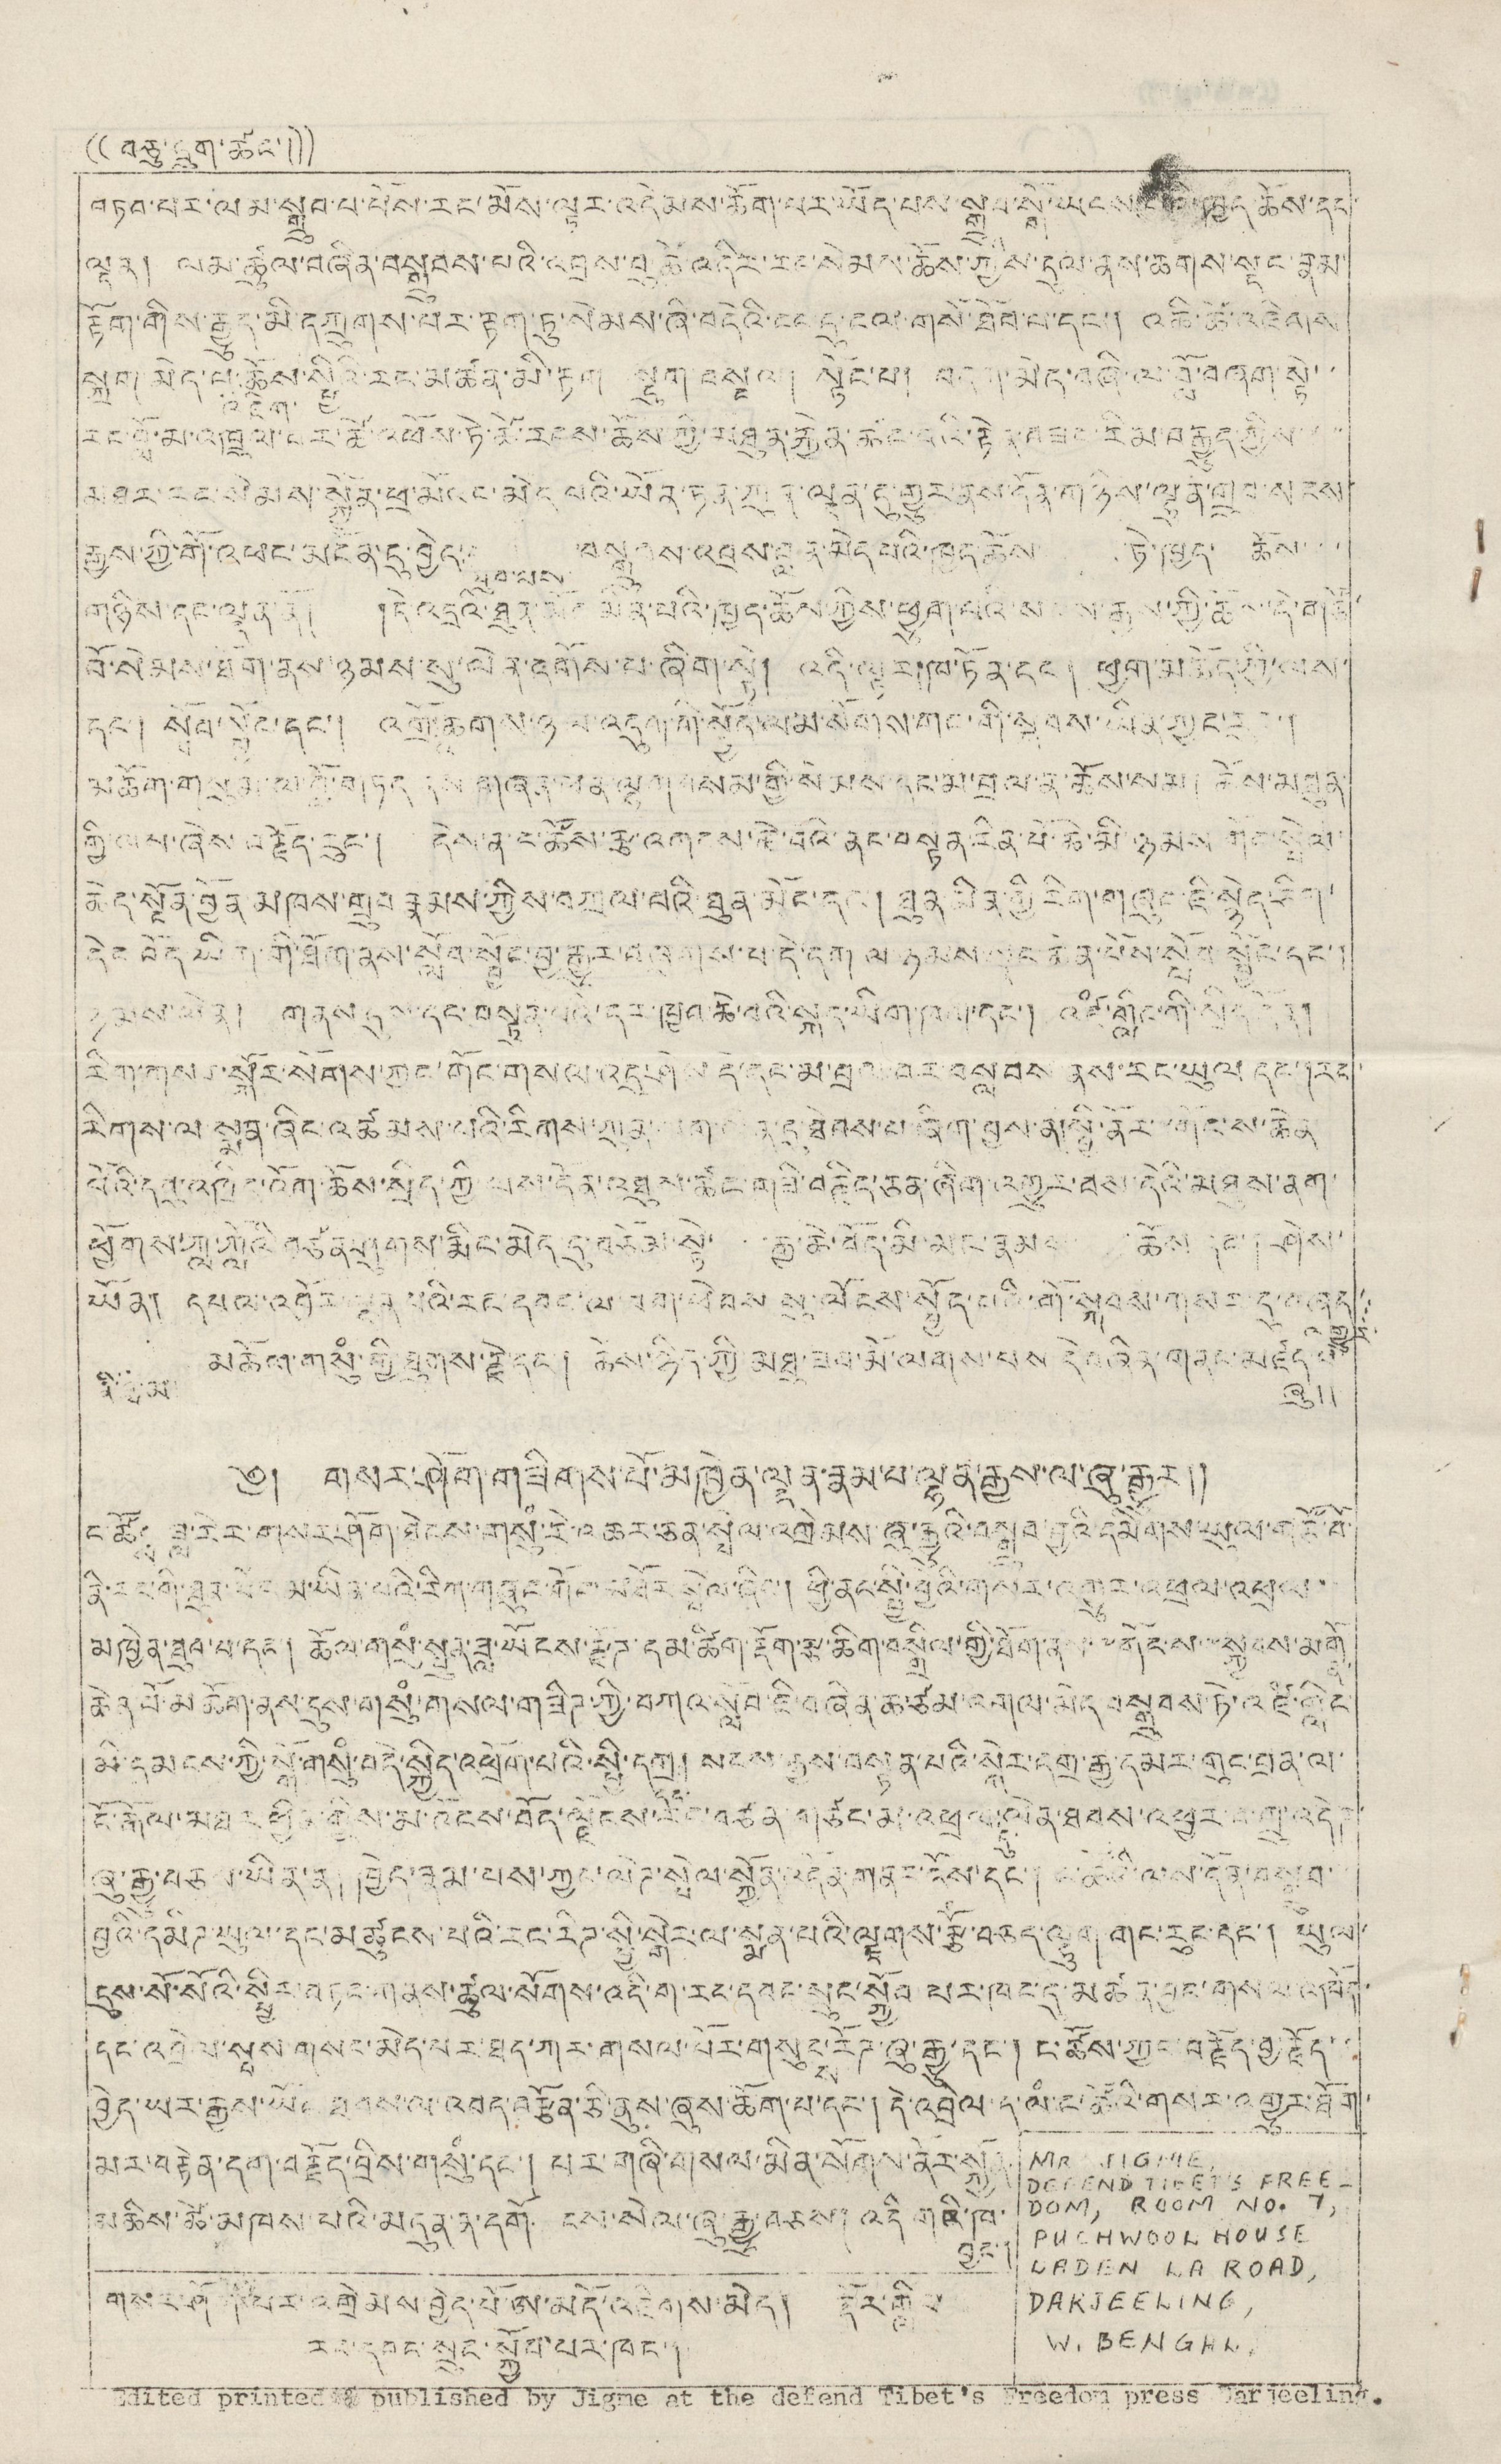(( བཅུ་དྲུག་ཚང་། ))
བཏབ་པར་ལམ་སྒྲུབ་པ་པོས་རང་མོས་ལྟར་འདེམས་ཆོག་པར་ཡོད་པས་སྒྲུབ་སྒོ་ཡངས་བའི་ཁྱད་ཆོས་དང་
ལྡན། ལམ་ཚུལ་བཞིན་བསྒྲུབས་པའི་འབྲས་བུ ཚེ་འདིར་རང་སེམས་ཆོས་ཀྱིས་དུལ་ནས་ཆགས་སྡང་རྣམ་
རྟོག་གིས་རྒྱུད་མི་དཀྲུགས་པར་རྟག་ཏུ་སེམས་ཞི་བདེའི་ངང་དུ་ངལ་གསོ་ཐོབ་པ་དང་། འཆི་ཚེ་འཇིགས་
སྐྲག་མེད་པ་
འཇིག་
ཆོས་སྤྱིའི་རང་མཚན་མི་རྟག སྡུག་བསྔལ། སྟོང་པ། བདག་མེད་བཞི་ལ་བློ་བཞག་སྟེ་་
རང་བློ་མ་འཁྲུལ་པར་ཚེ་འཕོས་ཏེ་ཚེ་རབས་ཆོས་ཀྱི་མཐུན་རྐྱེན་ཚང་བའི་རྟེན་བཟང་རིམ་བརྒྱུད་ཀྱིས་་་
མཐར་རང་སེམས་སྐྱོན་ཕྲ་མོའང་མེད་པའི་ཡོན་ཏན་ཀུན་ལྡན་དུ་གྱུར་ནས་དོན་གཉིས་ལྷུན་གྲུབ་སངས་
རྒྱས་ཀྱི་གོ་འཕང་མངོན་དུ་བྱེད་
ཐུབ་པས་
བསྒྲུབས་འབྲས་བླན་མེད་པའི་ཁྱད་ཆོས ཏེ་ཁྱད་ ཆོས་་་
གཉིས་དང་ལྡན་ནོ། །དེ་འདྲའི་ཐུན་མོང་མིན་པའི་ཁྱད་ཆོས་ཀྱིས་ཕྱུག་པའི་སངས་རྒྱས་ཀྱི་ཆོས་དེ་གཙོ་
བོ་སེམས་ཐོག་ནས་ཉམས་སུ་ལེན་དགོས་པ་ཞིག་སྟེ། འདི་ལྟར་ཁ་ཏོན་དང་། ཕྱག་མཆོད་ཀྱི་ལས་
དང་། སློབ་སྦྱོང་དང་།འགྲོ་
འ
ཆགས་ཉལ་འདུག་གི་སྦྱོད་ལམ་སོགས་གང་གི་སྐབས་ཡིན་ཀྱང་རུང་།
མཆོག་གསུམ་ལ་བློ་གཏད ནས་གཞན་ཕན་ལྷག བསམ་གྱི་སེམས་དང་མ་བྲལ་ན་ཆོས་སམ། ཆོས་མཐུན་
གྱི་ལས་ཞེས་བརྗོད་རུང་། དེས་ནས་ང་ཚོས་རྩ་འགངས་ཅྷེ་བའི་ནང་བསྟན་རིན་པོ་ཆེ་མི་ཉམས གོང་སྤེལ་
ཆེད་སྔོན་བྱོན་མཁས་གྲུབ་རྣམས་ཀྱིས་བཀྲལ་བའི་ཐུན་མོང་དང་། ཐུན་མིན་གྱི་རིག་གཞུང་ཇི་སྙེད་ཅིག་
དེང་བོད་ཡིག་གི་ཐོག་ནས་སློབ་སྦྱོང་བྱ་རྒྱུར་བཞུགས་པ་དེ་དག ལ་ཉམས་ང་ཆེན་པོས་སློབ་སྦྱོང་དང་།
ཉམས་ལེན། གནས་དུས་དང་བསྟན་པའི་དར་ཁྱབ་ཆེ་བའི་སྐད་ཡིག་ཁག་དང་། འཛཾ་གླིང་ཀི་སྲིད་དོན།
རིག་གསར་སྐོར་སོགས་ཀྱང་གོང་གསལ་འདྲ་ཤེས དེ་དང་མ་བྲལ་བར་བསླབས ནས་རང་ཡུལ དང་།རང་
རིགས་ལ སྨན་ཞིང་འཚམས་པའི་རིགས་ཀུན་ལག་ལེན་དུ་ཐེབས་པ་ཞིག་བྱས་ན་སྦྱི་ནོར་༸གོང་ས་ཆེན་
པོའི་དབུ་འཁྲིད་འོག་ཆོས་སྲིད་ཀྱི་ལས་དོན་འཐུས་ཚང་གཟི་བརྗོད་ཅན་ཞིག་འགྱུར་བས་དེའི་མཐུས་ནག་
ཕྱོགས་ཀླ་ཀློའི་བཙན་ཤུགས་རྨིང་མེད དུ་བཅོམ་སྟེ་ ་རྒྱ་ཆེ་བོད་མི་མང་རྣམས་ ཆོས དང་། ཤེས་
ཡོན། དཔལ་འབྱོར་ལྡན་པའི་རང་དབང་ལ་བག་ཕེབས་སུ་ལོངས་སྤྱོད་པའི་གོ་སྐབས་གསར་དུ་བཞད་
འགྱུར་
མཆོལ་གསུཾ་གྱི་ཐུགས་རྗེ་དང་། ཆོས་ཉིད་ཀྱི་མཐུ་ཟབ་མོ་ལགས་པས དེ་བཞིན་གནང་མཛད་པ་
ནི་ མ་
ཞུ།།
༄། གསར་ཤོག་གཟིགས་པོ་མཁྱེན་ལྡན་རྣམ་པ་ལྷན་རྒྱས་ལ་ཞུ་རྒྱུར།།
ང་ཚོས་ཟླ་རེར་གསར་ཤོག་ཐེངས་གསུཾ་རེ་འཆར་ཅན་སྤེལ་འགྲེམས་ཞུ་རྒྱུའི་བསྒྲུབ་བྱའི་དམིགས་ཡུལ་གཙོ་བོ་
ནི་རང་གི་ཐུན་མོང་མ་ཡིན་པའི་རིག་གཞུང་གོང་མཐོར སྤེལ་ཞིང་། ཕྱི་ནང་སྤྱི་ཕྱིའི་གསར་འགྱུར་འཕྲལ་འཕྲས་
མཁྱེན་ཐུབ་པ་དང་། ཆོལ་གསུཾ་སྤུན་ཟླ་ཡོངས་རྫོཊ་དམ་ཚིག་རྡོག་རྩ་ཆིག་བསྒྲིལ་གྱི་ཐོག་ནས་༸གོང་ས་སྐྱབས་མགོ
ན་
ཆེན་པོ་མཆོག་ནས་དུས་གསུཾ་གསལ་གཟིཊ་ཀྱི་བཀའ་སློབ་ཇི་བཞིན་ཆ་ཙམ་འགལ་མེད་བསྒྲུབས་ཏེ་འཛཾ་གླིང་
མི་དམངས་ཀྱི་སྒོ་གསུཾ་བདེ་སྐྱིད་འཕྲོག་པའི་སྤྱི་དགྲ།
དང་
སངས་རྒྱས་བསྟན་པའི་སྐོར་དགྲ་རྒྱ་དམར་གུང་བྲན་ལ་
ངོ་རྒོལ་མཐར ཕྱིན་གྱིས་མ་འོངས་བོད་ལྗོངས་རང་བཙན་གཙང་མ་འཕྲལ་
དུ་
ལེན་ཐབས་འཕྱར་བ་གྲུ་འདེཊ་
ཞུ་རྒྱུ་བཅས་ཡིན་ན། ཁྱེད་རྣམ་པས་ཀྱང་ལེཊ་སྤེལ་སྐྱོན་འདེན་གནང་རོགས་འོས་དང་། ང་ཚོའི་ལས་དོན་བསྒྲུབ་
བྱའི་དམིཊ་ཡུལ་དང་མཚུངས་པའི་རང་རིཊ་སྤྱི་སྒེར་ལ་སྨན་པའི་ལྗགས་རྩོ་བཅད་ལྟུག་གང་རུང་དང་། ཡུལ་
དུས་སོ་སོའི་སྤྱིར་བཏང་གནས་ཚུལ་སོགས་འདི་ག་རང་དབང་སྲུང་སྐྱོབ་པར་ཁང་དུ་མཚན་བྱང་གསལ་འཁོད་
དང་འབྲེལ་སྤས་གསང་མེད་པར་ཐད་ཀར་གསལ་པོར་གསུངྶ་རོཊ་ཞུ་རྒྱུ་དང་། ང་ཚོས་ཀྱང་བརྗོད་བྱ་རྗོད་་
བྱེད་ཡར་རྒྱས་ཡོང་ཐབས་ལ་འབད་བརྩོན་ཅི་ནུས་ཞུས་ཆོག་པ་དང་། དེ་འབྲེལ་ས་ལཾ་ང་ཚོའི་གསར་འགྱུར་ཐོག་
མར་བརྟེན་དག་བརྗོད་བྲིས་གསུཾ་དང་། པར་གཞི་གསལ་མིན་སོགས་ནེར་སྐྱོན་
མཆིས་ཚེ་མཁས་པའི་མདུན་ན་དགོ ངས་སེལ་ཞུ་རྒྱུ་བཅས། འདི གའི་ཁ་
བྱང་།
གསར་ཤོག་པར་འགྲེམས་བྱེད་པོ་ཨ་མདོ་འཇིགས་མེད། རྡོར་གླིང་
རང་དབང་སྲུང་སྐྱོབ་པར་ཁང་།
MR JIGME,
DEFEND TIBET'S FREE-
DOM, ROOM NO. 7,
PUCHWOOL HOUSE
LADEN LA ROAD,
DARJEELING,
W. BENGAL.
Edited printed & published by Jigme at the defend Tibet's Freedom press Darjeeling.
